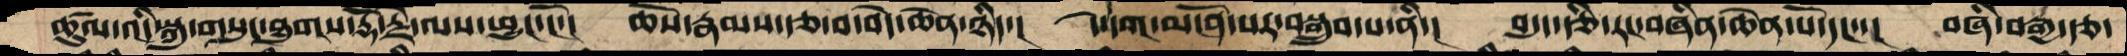ཚུལ་འདི་སྐུ་གསུང་ཐུགས་རྡོ་རྗེ་ལས་ཕྱུང་ངོ་།  ཆོས་རྣམས་རྩ་བ་བདེ་ཆེན་ཉིད་།  དེ་དག་མངོན་པར་བསྒྲུབ་པ་ནི་།  བདུད་རྩི་རང་བཞིན་ཆེན་པོ་དང་་།  བཞི་བརྒྱ་རྩ་
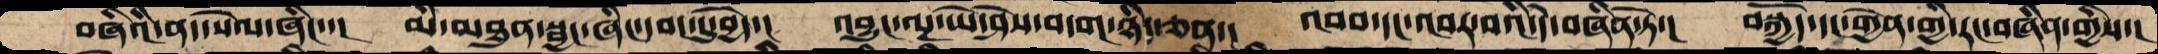བཞིའི་ནད་སེལ་ཞིང་་།  མི་མཐུན་སྦྱང་ཞིང་དབང་དུ་བྱེད་།  འབྱུང་ལྔ་ཡེ་ཤེས་བདག་ཉིད་ཅན་།   འབབ་དང་འབར་བའི་དེ་བཞིན་ཏེ་།  བསྐྱོད་དང་གྱེན་གྱི་རང་བཞིན་གྱིས་།
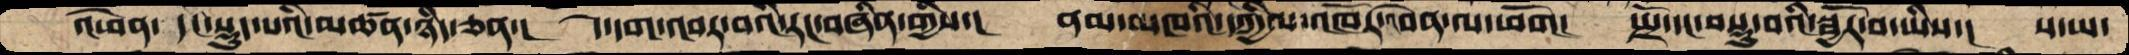འཕེན་ དང་སྡུད་པའི་མཚན་ཉིད་ཅན་།  དེ་དག་འབར་བའི་རང་བཞིན་གྱིས་།  ནམ་མཁའི་དཀྱིལ་འཁོར་འབེན་ལ་ཕོག།  སྤྲོ་དང་བསྡུ་བའི་སྦྱོར་བ་ཡིས་།  ས་ཡ་
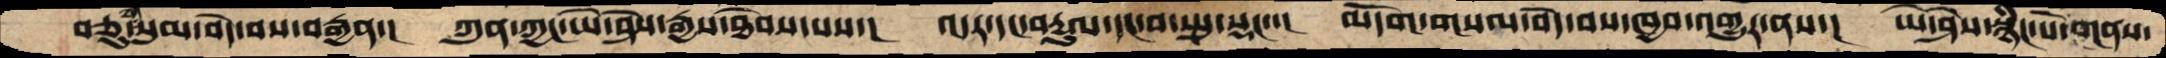བཅུ་གསུམ་བདེ་བས་བརྒྱན་། ཀུན་ཀྱང་ཡེ་ཤེས་རྒྱས་ཐེབས་པས་། ལར་དང་བརྔུལ་དང་བ་སྤུ་སྡང་་། མདོག་གསལ་བདེ་བས་ཁྱབ་འགྱུར་ནས་། ཡེ་ཤེས་སྙིང་པོ་གནས་
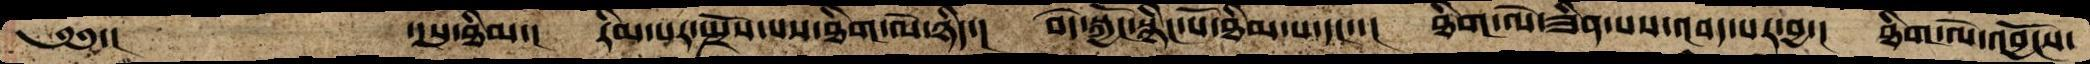༄༅་།      ་།སུ་ཐིམ་།  རིམ་པར་སྤྲོས་པས་ཐིག་ལེ་ཉིད་།  བདེ་སྐྱོང་སྙིང་པོ་ཐིམ་པ་དང་་།  ཐིག་ལེ་ཟིན་པས་འབད་པར་བྱ་།  ཐིག་ལེ་འབྱོངས་
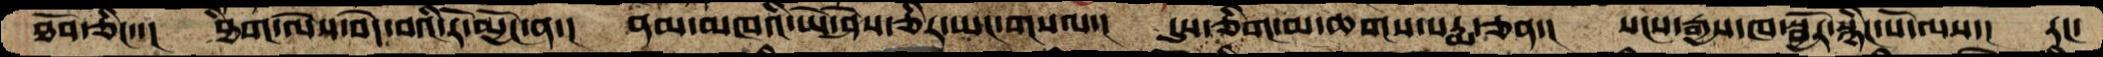ཐོབ་ཅིང་་།  ཐིག་ལེས་བདེ་བའི་རོ་མྱོང་ན་།  ནམ་མཁའི་ཡེ་ཤེས་ཅིར་ཡང་གསལ་།  དུས་ཅིག་མ་ཆགས་པདྨ་ཅན་།  སངས་རྒྱས་ཁ་སྦྱོར་སྙིང་པོ་ལས་།  རང་
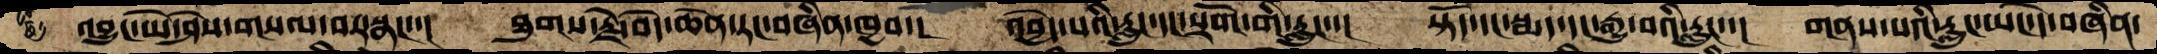འབྱུང་ཡེ་ཤེས་གསལ་བར་སྣང་་། ཐུགས་རྗེ་བདེ་ཆེན་རང་བཞིན་ཁྱབ་། འབྱེད་པའི་རླུང་དང་སྲོག་གི་རླུང་་། སྟོད་དང་སྨད་དང་རྒྱུ་བའི་རླུང་་། གནས་པའི་རླུང་ཡང་དེ་བཞིན་
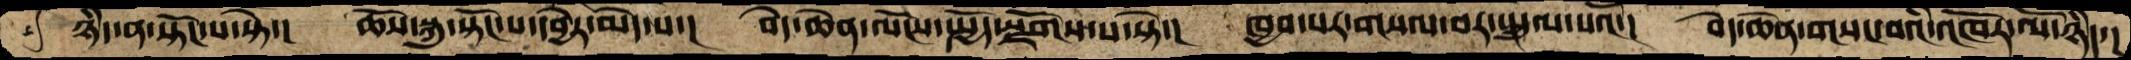ཉིད་ན་སྟོང་པ་སྟེ་། ཆོས་སྐུ་སྟོང་པ་དབྱེར་མེད་པ་། བདེ་ཆེན་ལོངས་སྤྱོད་སྫོགས་པ་སྟེ་། ཁྱབ་པར་གསལ་བར་སྤྲུལ་པའོ་། བདེ་ཆེན་གསང་བའི་འཁོར་ལོ་ཉིད་།
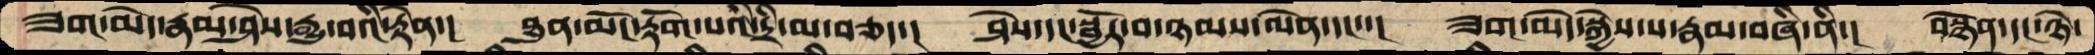ཟག་མེད་རྣམ་ཤེས་རྒྱུ་བའི་རྟེན་།  ཐུན་མོང་རྟོག་པའི་དྲི་མ་བཅད་།  ཤེས་དང་སྦྱོར་བ་ཉམས་ལེན་དང་་།  ཟག་མེད་སྐྱེས་པ་རྣམ་བཞི་ནི་།  བསྙེན་དང་ཉེ་
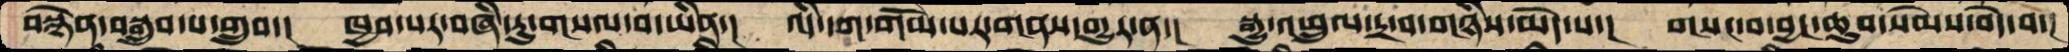བསྙེན་བསྒྲུབ་པ་གྲུབ་།  ཁྱབ་པར་བཞི་རུ་གསལ་བ་ཡིན་།  འདི་དག་གོམ་པར་གནས་གྱུར་ན་།  སྒྱུ་འཕྲུལ་དྲ་བ་གཉིས་མེད་པ་།  གསང་བ་བྱང་ཆུབ་སེམས་བདེ་བ་།
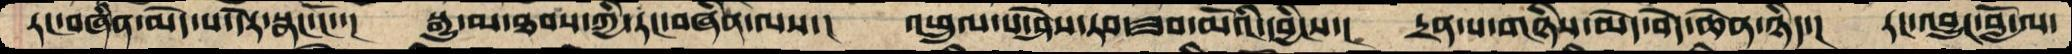རང་བཞིན་མེད་པ་དེར་སྣང་ངོ་་།  སྒྱུ་མ་ཐབས་ཀྱི་རང་བཞིན་ལས་།  འཕྲུལ་པ་ཤེས་རབ་ཟབ་མོའི་དབྱིངས་།  དྲན་པ་གཉིས་མེད་བདེ་ཆེན་ཉིད་།  རང་འབྱུང་བློ་ལ་
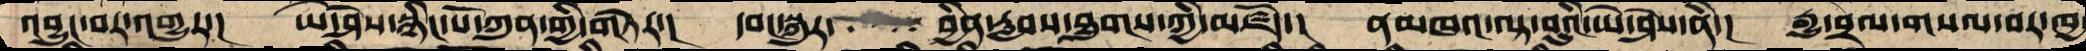འབྱུང་བར་འགྱུར་།  ཡེ་ཤེས་སྙིང་པོ་ཀུན་གྱི་གཏེར་།  དབང་སྐུར་ ་    ་  ་བྱིན་རླབས་ཐུགས་ཀྱི་མཛོད་།  ནམཁའ་ལྟ་བུའི་ཡེ་ཤེས་ནི་།  རྒྱུ་བྲལ་གསལ་བར་ཁྱ
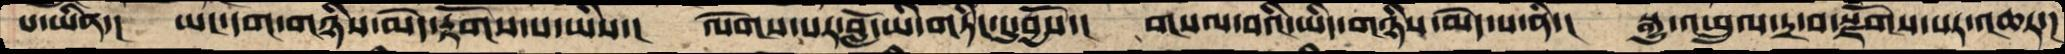པ་ཡིན་།  ཡང་དག་གཉིས་མེད་རྟོགས་པ་ཡིས་།  ལེགས་པར་བློ་ཡི་གཏིང་དུ་བྱོས་།  གསལ་བའི་ཡིད་གཉིས་མེད་པ་ནི་།  སྒྱུ་འཕྲུལ་དྲ་བ་སྫོགས་པར་འཆར་།
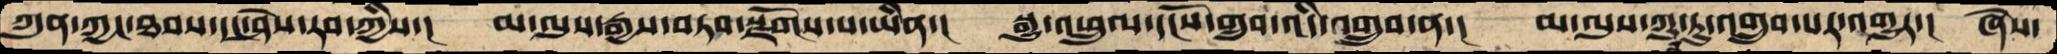ཀུན་ཀྱང་ཐབས་དང་ཤེས་རབ་ཀྱིས་། མ་ལུས་རྒྱས་བཏབ་སྫོགས་པ་ཡིན་། སྒྱུ་འཕྲུལ་དངོས་གྲུབ་འདི་འགྲུབ་ན་། མ་ལུས་ཀུན་ཏུ་འགྲུབ་པར་འགྱུར་། ཞེས་
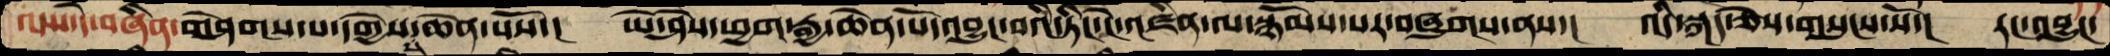ལས་དེ་བཞིན་གཤེགས་པ་དགྱེས་པ་ཆེན་པོས་། ཡེ་ཤེས་ཕྱག་རྒྱ་ཆེན་པོ་འབྱུང་བའི་ཏིང་ངེ་འཛིན་ལ་སྙོམས་པར་བཞུགས་ནས་། འདི་སྐད་ཅེས་གསུངས་སོ་། རང་འབྱུང་
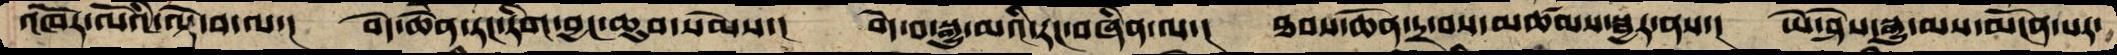འཁོར་ལོའི་ལྟེ་བ་ལ་།  བདེ་ཆེན་རང་རིག་བྱང་ཆུབ་སེམས་།  བདེ་བ་སྒྱུ་མའི་རང་བཞིན་ལ་།  ཐབས་ཆེན་དྲ་བས་མཚམས་སྦྱར་ནས་།  ཡེ་ཤེས་སྒྱུ་མས་མངོན་པར་
